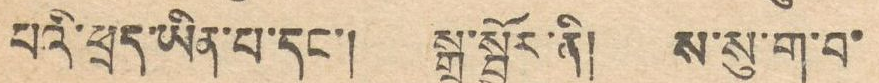པའི་ཕྲད་ཡིན་པ་དང་། སྒྲ་སྦྱོར་ནི། ས་སུ་ག་བ་
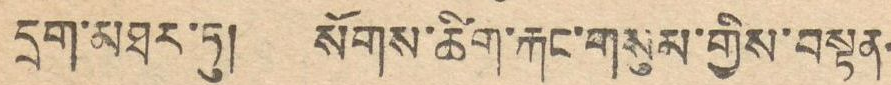དྲག་མཐར་ཏུ། སོགས་ཚིག་སྐང་གསུམ་གྱིས་བསྟན་
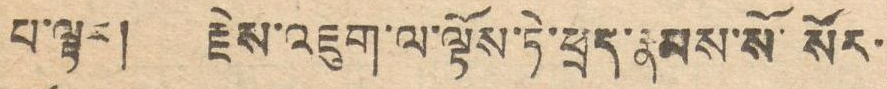པ་ལྟར། རྗེས་འཇུག་ལ་ལྟོས་ཏེ་ཕྲད་རྣམས་སོ་སོར་
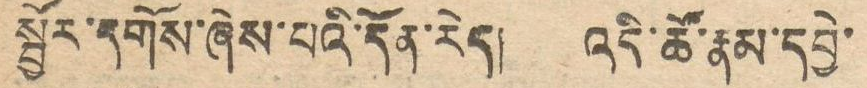སྦྱོར་དགོས་ཞེས་པའི་དོན་རེད། འདི་ཚོ་རྣམ་དབྱེ་
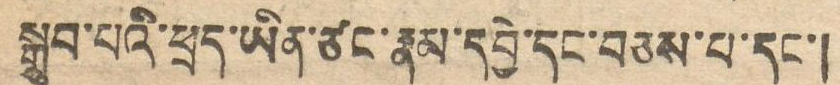སྒྲུབ་པའི་ཕྲད་ཡིན་ཙང་རྣམ་དབྱེ་དང་བཅས་པ་དང་།
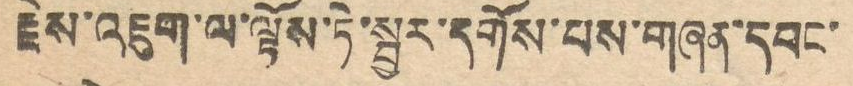རྗེས་འཇུག་ལ་སྟོས་ཏེ་སྦྱར་དགོས་པས་གཞན་དབང་
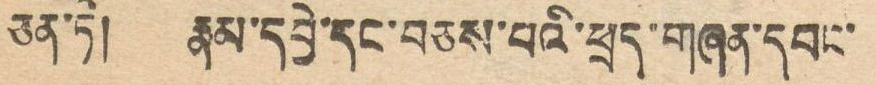ཅན་ཏེ། རྣམ་དབྱེ་དང་བཅས་པའི་ཕྲད་གཞན་དབང་
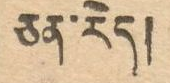ཅན་རེད།
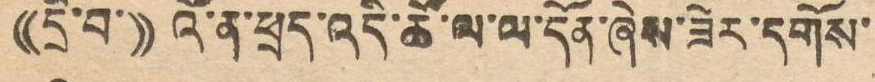((དྲི་བ་)) འོ་ན་ཕྲད་འདི་ཚོ་ལ་ལ་དོན་ཞེས་ཟེར་དགོས་
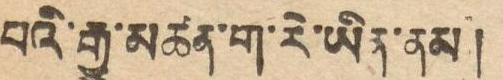པའི་རྒྱུ་མཚན་ག་རེ་ཡིན་ནམ།
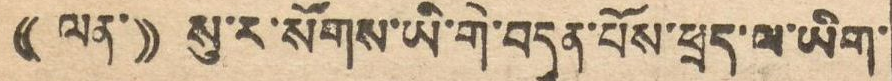((ལན་)) སུ་ར་སོགས་ཡི་གེ་བདུན་པོས་ཕྲད་ལ་ཡིག་
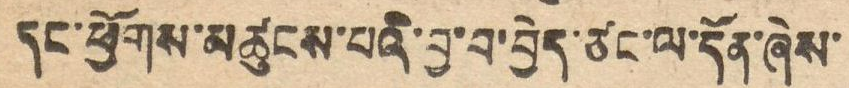དང་ཕྱོགས་མཚུངས་པའི་བྱ་བ་བྱེད་ཙང་ལ་དོན་ཞེས་
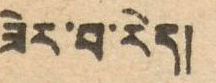ཟེར་བ་རེད།
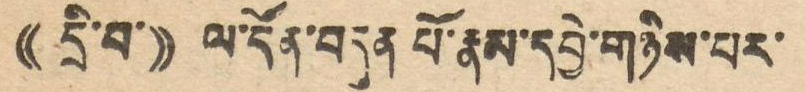((དྲི་བ་)) ལ་དོན་བདུན པོ་རྣམ་དབྱེ་གཉིས་པར་
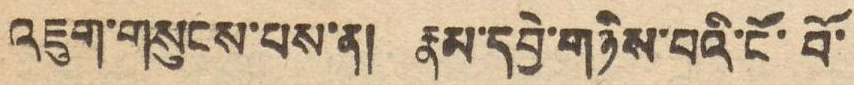འཇུག་གསུངས་པས་ན། རྣམ་དབྱེ་གཉིས་པའི་ངོ་བོ་
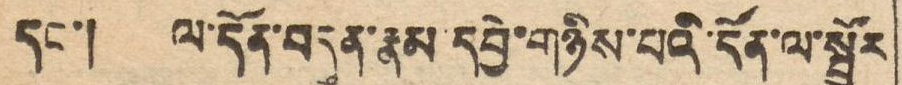དང་། ལ་དོན་བདུན་རྣམ དབྱེ་གཉིས་པའི་དོན་ལ་སྦྱོར
